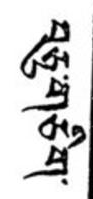བཅུ་གཅིག་
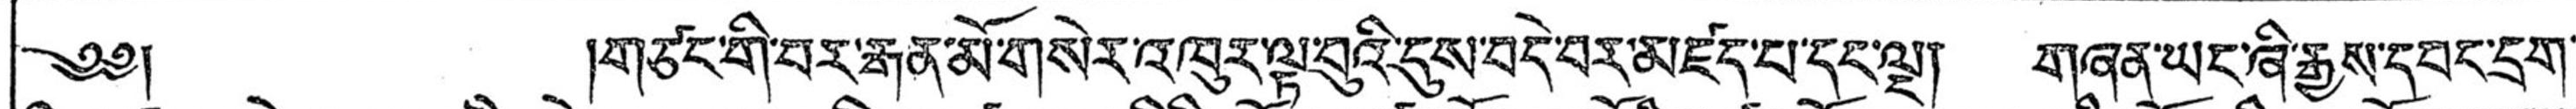༄༅། །གཙང་གི་བར་རྒན་མོ་གསེར་འཁུར་ལྟ་བུའི་དུས་བདེ་བར་མཛད་པ་དང་ལྔ་། གཞན་ཡང་ཞི་རྒྱས་དབང་དྲག་
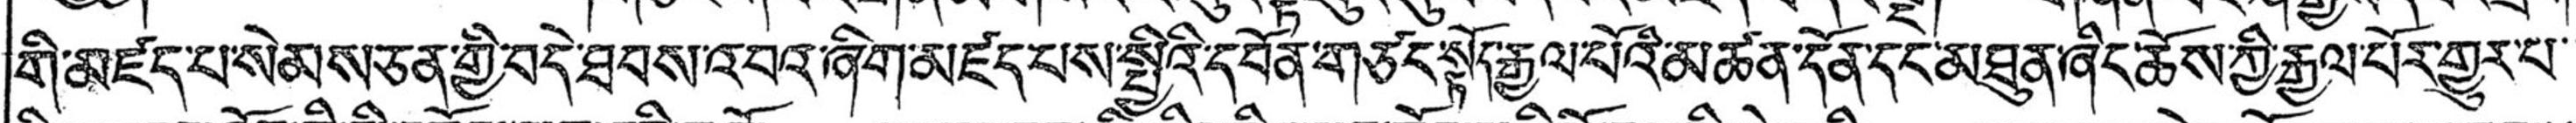གི་མཛད་པ་སེམས་ཅན་གྱི་བདེ་ཐབས་འབའ་ཞིག་མཛད་པས་སྤྱིའི་དབོན་གཙང་སྟོད་རྒྱལ་པོའི་མཚན་དོན་དང་མཐུན་ཞིང་ཆོས་ཀྱི་རྒྱལ་པོར་གྱུར་པ་་
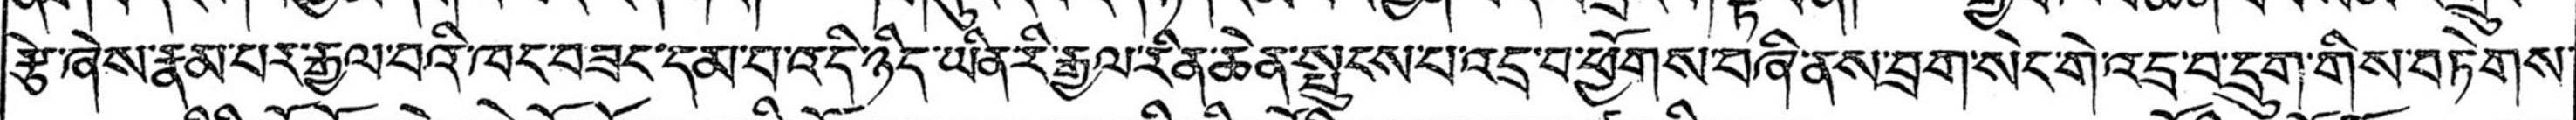རྩེ་ཞེས་རྣམ་པར་རྒྱལ་བའི་ཁང་བཟང་དམ་པ་འདི་ཉིད་ཡིན་རི་རྒྱལ་རིན་ཆེན་སྤུངས་པ་འདྲ་བ་ཕྱོགས་བཞི་ནས་བྲག་སེང་གེ་འདྲ་བ་དྲུག་གིས་བཏེགས་
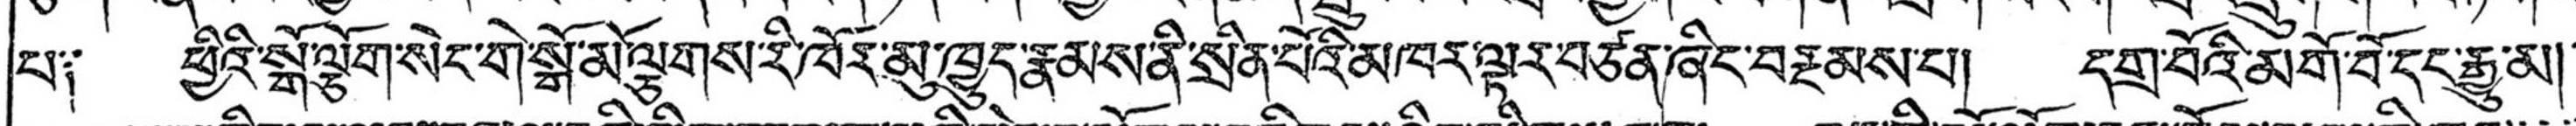པ༑ ཕྱིའི་སྒོ་ལྕོག་སེང་གེ་སྒོ་མོེ་ལྕགས་རི་ཁོར་མུ་ཁྱུད་རྣམས་ནི་སྲིན་པོའི་མཁར་ལྟར་བཙན་ཞིང་བརྔམས་པ། དགྲ་བོའི་མགོ་བོ་དང་རྒྱུ་མ།
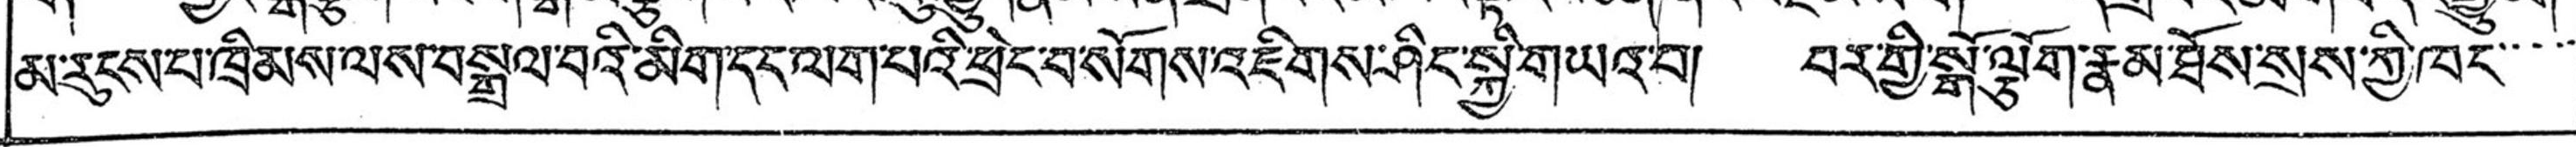མ་རུངས་པ་ཁྲིམས་ལས་བསྒྲལ་བའི་མིག་དང་ལག་པའི་ཕྲེང་བ་སོགས་འཇིགས་ཤིང་སྐྱི་གཡའ་བ། བར་གྱི་སྒོ་ལྕོག་རྣམ་ཐོས་སྲས་ཀྱི་ཁང་་་་་
